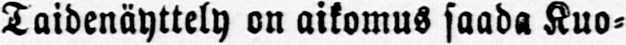Taidenäyttely on aikomus saada Kuo-
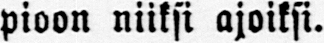pioon niiksi ajoiksi.
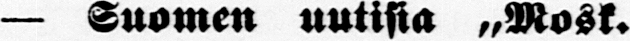— Suomen uutisia „Mosk.
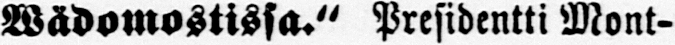Wädomostissa." Presidentti Mont-
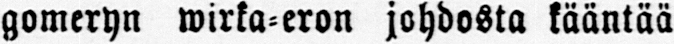gomeryn wirka-eron johdosta kääntää
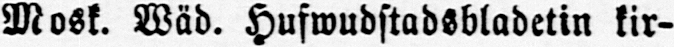Mosk. Wäd. Huswudstadsbladetin kir-
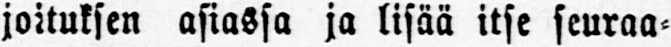joituksen asiassa ja lisää itse seuraa-
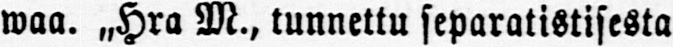waa. „Hra M., tunnettu separatistisesta
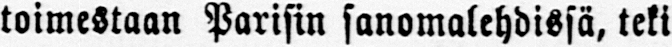toimestaan Parisin sanomalehdissä, teki
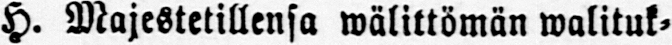H. Majestetillensa wälittömän walituk-
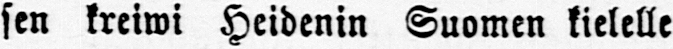sen kreiwi Heidenin Suomen kielelle
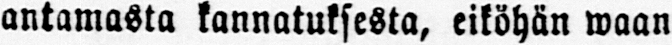antamasta kannatuksesta, eiköhän waan
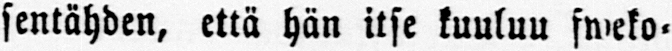sentähden, että hän itse kuuluu sweko-
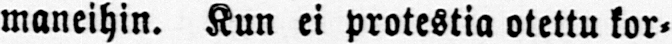maneihin. Kun ei protestia otettu kar-
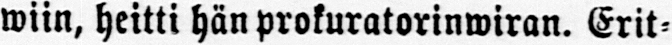wiin, heitti hän prokuratorinwiran. Erit-
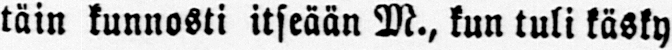täin kunnosti itseään M., kun tuli käsky
